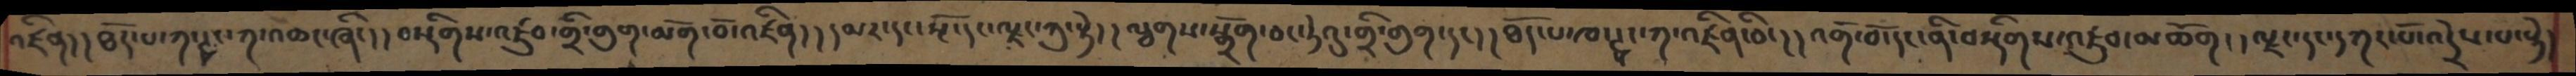འཛིན།། ཐོད་པ་ཀ་ཊྭང་ཀ་འཆང་ཞིང།།བསྡིགས་འཛུབ་གྲི་གུག་མགོ་བོ་འཛིན།།དམར་དང་སྔོ་དང་ལྗང་ཀུ་སྟེ།།ལྕགས་སྒྲོག་ཅང་ཏེའུ་གྲི་གུག་དང།།ཐོད་པ་ཁ་ཊྭང་ཀ་འཛིན་ཅིང།།འགོ་བོ་དང་ནི་བསྡིགས་འཛུབ་མཆོག།།ལྗང་དང་དཀར་པོ་འདྲེས་པ་སྟེ།
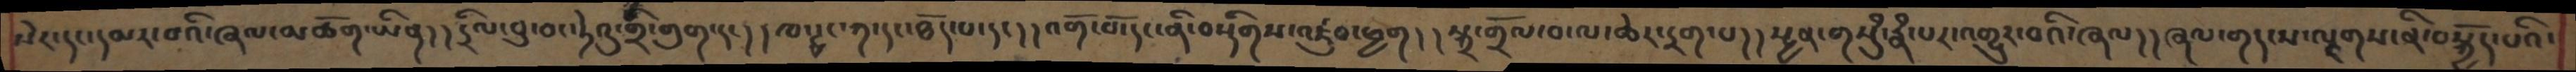སེར་དང་དམར་བའི་ཞལ་མཆོག་ཡིན། །དྲིལ་བུ་ཅང་ཏེའུ་གྲི་གུག་དང། །ཁ་ཊྭང་ཀ་དང་ཐོད་པ་དང། །འགོ་བོ་དང་ནི་བསྡིགས་འཛུབ་ཕྱག། །སྐྲ་གྲོལ་བ་ལ་ཆེར་དྲག་པ། །སྤྱན་གསུཾ་རྣཾ་པར་འགྱུར་བའི་ཞལ་། །ཞལ་གདངས་ལྗགས་ནི་བསྐྱོད་པའི་
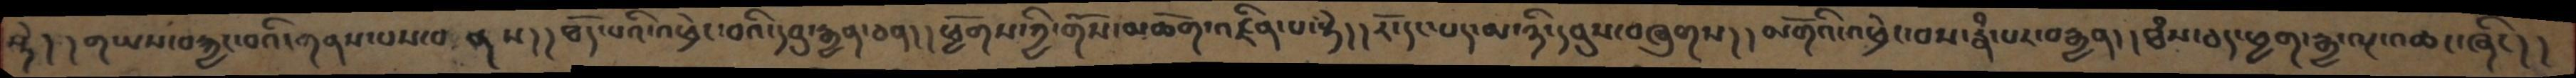སྟེ། །གཡས་བརྐྱང་བའི་གནས་པས་གནས། །ཐོད་པའི་འཕྲེང་བའི་དབུ་རྒྱན་ཅན། །ཕྱོགས་ཀྱི་གོས་མཆོག་འཛིན་པ་སྟེ། །རོ་དང་པད་མ་ཉི་དབུས་བཞུགས། །མགོའི་འཕྲེང་བས་རྣཾ་པར་བརྒྱན། །ཐཾས་ཅད་ཕྱག་རྒྱ་ལྔ་འཆང་ཞིང། །
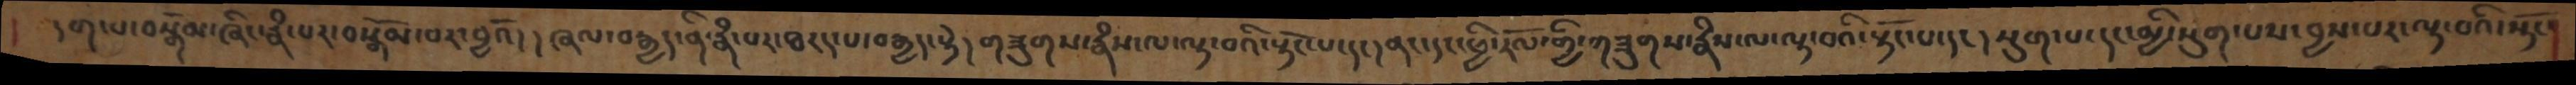དག་པ་བསྒོམ་ཞིང་རྣཾ་པར་བསྒོམ་པར་བྱའོ། །ཞལ་བརྒྱད་ནི་རྣཾ་པར་ཐརད་པ་བརྒྱད་སྟེ། གཟུགས་རྣཾས་ལ་ལྟ་བའི་སྟོང་དང། ནང་དང་ཕྱི་རོལ་གྱི་གཟུགས་རྣཾས་ལ་ལྟ་བའི་སྟོང་པ་དང། སྡུག་པ་དང་མྱི་སྡུག་པས་བྱས་པར་ལྟ་བའི་སྟོང་
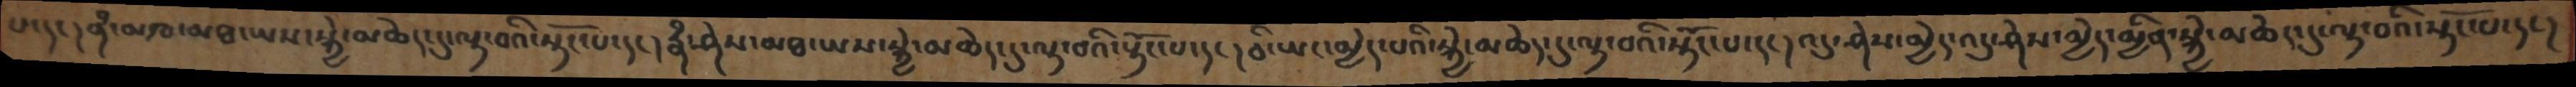པ་དང།ནཾ་མཁ་མཐ་ཡས་སྐྱེ་མཆེད་དུ་ལྟ་བའི་སྟོང་པ་དང། རྣཾ་ཤེས་མཐ་ཡས་སྐྱེ་མཆེད་དུ་ལྟ་བའི་སྟོང་པ་དང། ཅི་ཡང་མྱེད་པའི་སྐྱེ་མཆེད་དུ་ལྟ་བའི་སྟོང་པ་དང། འདུ་ཤེས་མྱེད་འདུ་ཤེས་མྱེད་མྱིན་སྐྱེ་མཆེད་དུ་ལྟ་བའི་སྟོང་པ་དང།
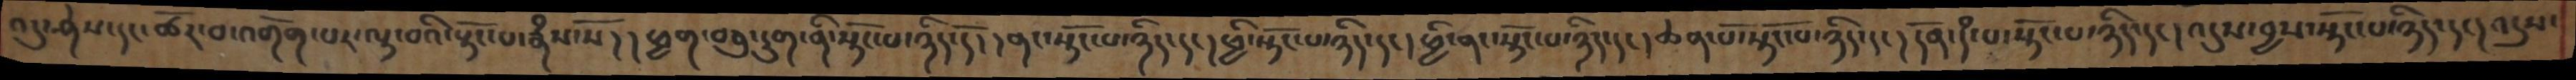འདུ་ཤེས་དང་ཚོར་བ་འགོག་པར་ལྟ་བའི་སྟོང་པ་རྣཾས་སོ།།ཕྱག་བཅུ་དྲུག་ནི་སྟོང་པ་ཉིད་དོ།།ནང་སྟོང་པ་ཉིད་དང། ཕྱི་སྟོང་པ་ཉིད་དང། ཕྱི་ནང་སྟོང་པ་ཉིད་དང། ཆེན་པོ་སྟོང་པ་ཉིད། དོན་དཾ་པ་སྟོང་པ་ཉིད་དང། འདུས་བྱས་སྟོང་པ་ཉིད་དང། འདུས་
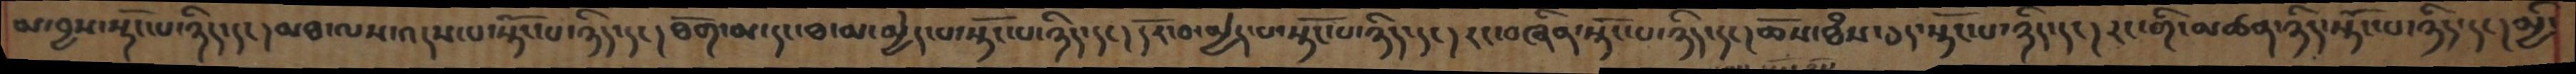མ་བྱས་སྟོང་པ་ཉིད་དང། མཐ་ལས་འདས་པ་སྟོང་པ་ཉིད་དང། ཐོག་མ་དང་ཐ་མ་མྱེད་པ་སྟོང་པ་ཉིད་དང། དོར་བ་མྱེད་པ་སྟོང་པ་ཉིད་དང། རང་བཞིན་སྟོང་པ་ཉིད་དང། ཆོས་ཐཾས་ཅད་སྟོང་པ་ཉིད་དང། རང་གི་མཚན་ཉིད་སྟོང་པ་ཉིད་དང། མྱི་
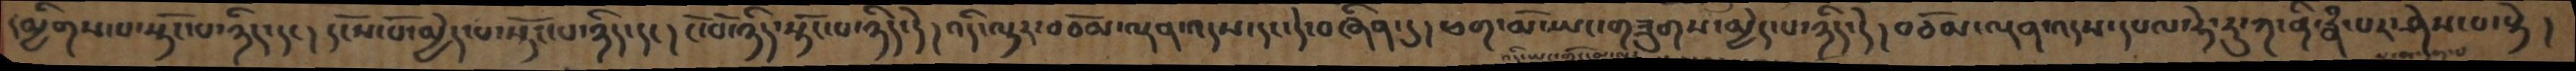དམྱིགས་པ་སྟོང་པ་ཉིད་དང། དངོས་པོ་མྱེད་པ་སྟོང་པ་ཉིད་དང། ངོ་བོ་ཉིད་སྟོང་པ་ཉིད་དེ། འདི་ལྟར་བཅོམ་ལྡན་འདས་དང་དེ་བཞིན་དུ། ཕག་མོ་ཡང་གཟུགས་མྱེད་པ་ཉིད་དེ། བཅོམ་ལྡན་འདས་དཔལ་ཧེ་རུ་ཀ་ནི་རྣཾ་པར་ཤེས་པ་སྟེ།
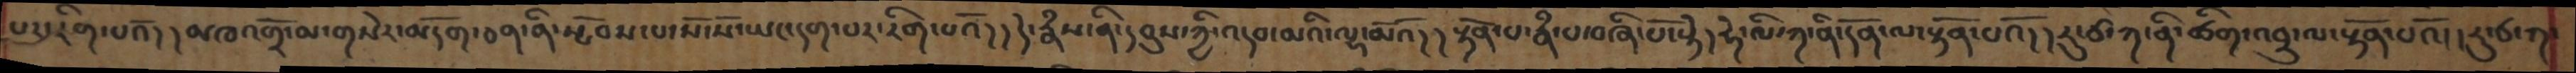པར་རིགས་པའོ།།མཁའགྲོ་མ་གསེར་མདོག་ཅན་ནི་སྤོབས་པ་སོ་སོ་ཡང་དག་པར་རིག་པའོ།།དེ་རྣཾས་ནི་དབུས་ཀྱི་འདབ་མའི་ལྷ་མོའོ།།སྟོན་པ་རྣཾ་པ་བཞི་པོ་སྟེ། ཧེ་ལི་ཀ་ནི་དོན་ལ་སྟོན་པའོ།།རུ་ཙ་ཀ་ནི་ཚིག་འབྲུ་ལ་སྟོན་པའོ། །རུ་ཙ་ཀ་
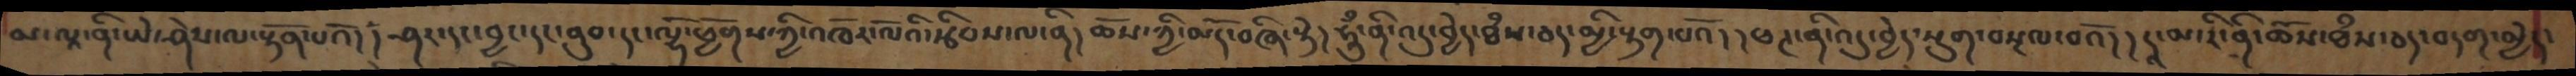མ་ལཱ་ནི་ཡེ་ཤེས་ལ་སྟོན་པའོ། །ཤར་དང་བྱང་དང་ནུབ་དང་ལྷོ་ཕྱོགས་ཀྱི་འཁོར་ལོའི་རྩིབས་ལ་ནི། ཆོས་ཀྱི་མདོ་བཞི་སྟེ། ཧཱུྃ་ནི་འདུ་བྱེད་ཐཾས་ཅད་མྱི་རྟག་པའོ།།ཕཊ་ནི་འདུ་བྱེད་སྡུག་བསྔལ་བའོ།།ཌཱ་མ་རི་ནི་ཆོས་ཐཾས་ཅད་བདག་མྱེད་
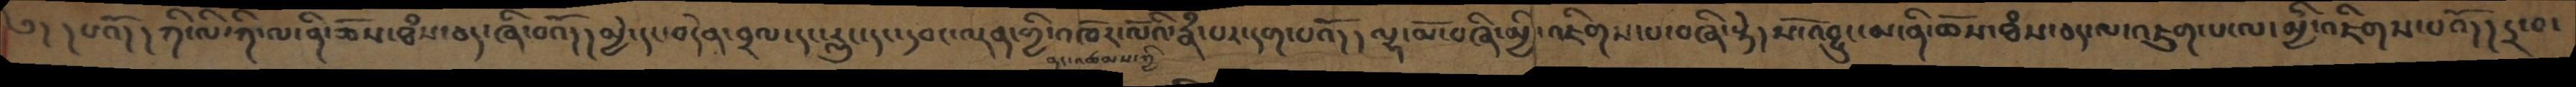༄། །པའོ། །ཀི་ལི་ཀི་ལ་ནི་ཆོས་ཐཾས་ཅད་ཞི་བའོ། །མྱེ་དང་བདེན་བྲལ་དང་རླུང་དང་དབང་ལྡན་གྱི་འཁོར་ལོའི་རྣཾ་པར་དག་པའོ། །ལྷ་མོ་བཞི་མྱི་འཇིགས་པ་བཞི་སྟེ། སོ་འབྱུང་མ་ནི་ཆོས་ཐཾས་ཅད་ལ་འཇུག་པ་ལ་མྱི་འཇིགས་པའོ། དྲ་བ་
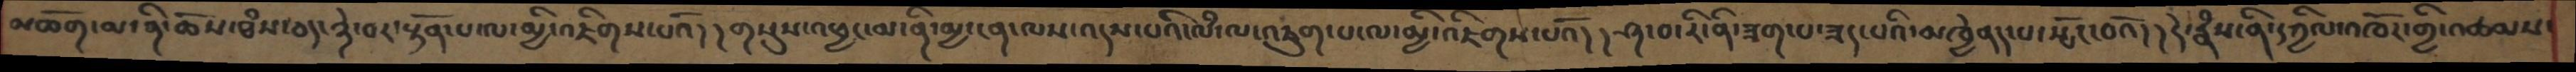མཆོག་མ་ནི་ཆོས་ཐཾས་ཅད་ཉེ་བར་སྟོན་པ་ལ་མྱི་འཇིགས་པའོ། །གསུས་འཕྱང་མ་ནི་མྱ་ངན་ལས་པའི་ལཾ་ལ་འཇུག་པ་ལ་མྱི་འཇིགས་པའོ། །ཤ་བ་རི་ནི་ཟག་པ་ཟད་པའི་མཁྱེནད་པ་སྤོང་བའོ།།དེ་རྣཾས་ནི་དཀྱིལ་་འཁོར་གྱི་འཚམས་
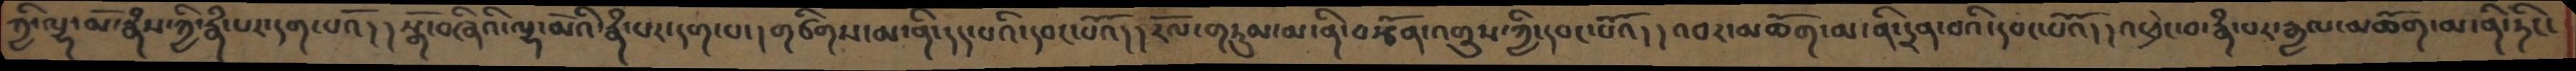ཀྱི་ལྷ་མོ་རྣཾས་ཀྱི་རྣཾ་པར་དག་པའོ། །སྒོ་བཞིའི་ལྷ་མོའི་རྣཾ་པར་དག་པ་།གཙིགས་མ་ནི་དད་པའི་དབང་པོའོ། །རོལ་གཏུམ་མ་ནི་བརྩོན་འགྲུབ་ཀྱི་དབང་པའོ།འབར་མཆོག་མ་ནི་དྲན་བའི་དབང་པའོ། །འཕྲེང་བ་རྣཾ་པར་རྒྱལ་མཆོག་མ་ནི་ཏིང།
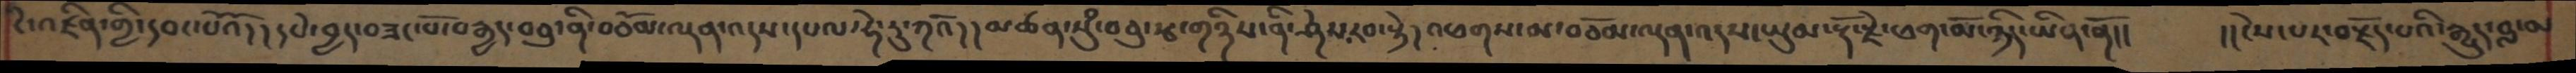ངེ་འཛིན་གྱི་དབང་པོའོ། །དཔེ་བྱད་བཟང་པོ་བརྒྱད་བཅུ་ནི་བཅོམ་ལྡན་འདས་དཔལ་ཧེ་རུ་ཀའོ། །མཚན་སུཾ་བཅུ་རྩ་གཉིས་ནི་ཤེས་རབ་སྟེ། འཕགས་མ་བཅོམ་ལྡན་འདས་ཡུམ་རྡོ་རྗེ་ཕག་མོ་ཉིད་ཡིན་ནོ།།      །།ངེས་པར་བརྗོད་པའི་རྒྱུད་བླ་མ
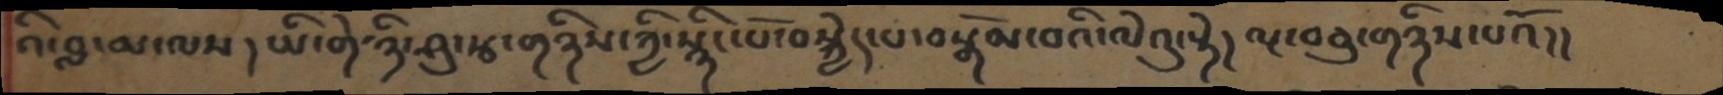འི་བླ་མ་ལས ། ཡི་གེ་ཉི་ཤུ་རྩ་གཉིས་ཀྱི་སྙིང་པོ་བསྐྱེད་པ་བསྒོམ་བའི་ལེའུ་སྟེ།  ལྔ་བཅུ་གཉིས་པའོ།།
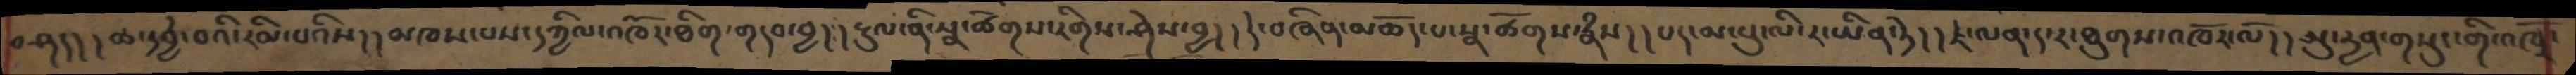བཤད། །ཆ་དབྱེ་བའི་རིམ་པའིས། །མཁས་པས་དཀྱིལ་འཁོར་ཐིག་གདབ་བྱ། །རྡུལ་ནི་སྣ་ཚོགས་རིགས་ཤེས་བྱ། །དེ་བཞིན་མཆོད་པ་སྣ་ཚོགས་རྣཾས། །པད་མ་པུ་ལི་ར་ཡིན་ཏེ། །ཛ་ལན་ད་ར་ཐུགས་འཁོར་ལོ། །ཨུ་དྱན་གསུང་གི་འཁོར་
